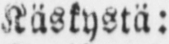Käskystä:
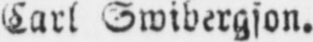Carl Swibergson.
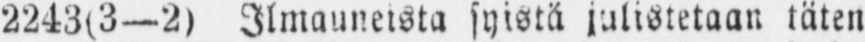2243(3—2) Ilmauneista syistä julistetaan täten
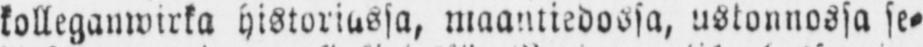kolleganwirka historiassa, maantiedossa, ustonnossa se-
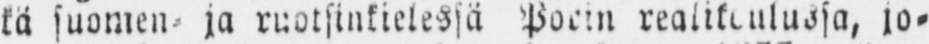kä suomen- ja ruotsinkielessä Porin realikoulussa, jo-
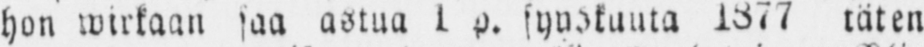hon wirkaan saa astua 1 p. syyskuuta 1877 täten
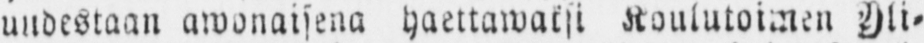uudestaan awonaisena haettawaksi Koulutoimen Yli-
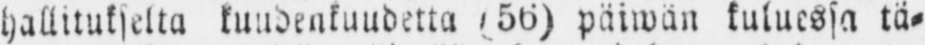hallituksella kuudenkuudetta (56) päiwän kuluessa tä-
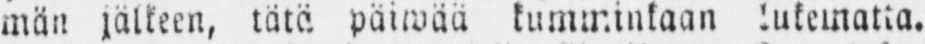män jälkeen, tätä päiwää kumminkaan lukematta.
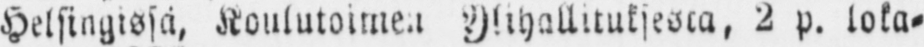Helsingissä, Koulutoimen Ylihallituksesta, 2 p. loka-
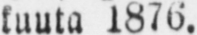kuuta 1876.
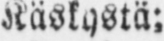Käskystä:
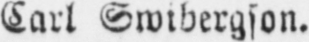Carl Swibergson.
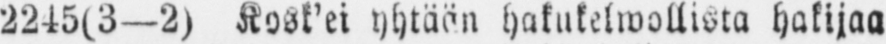2245(3—2) Kosk’ei yhtään hakukelwollista hakijaa
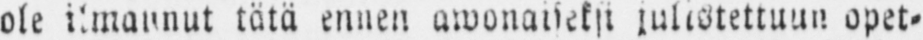ole ilmaunut tätä ennen awonaseksi julistettuuin opet-
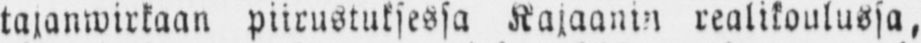tajanwirkaan piirustuksessa Kajaanin realikoulussa,
